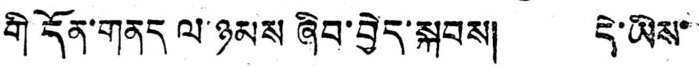གི དོན་གནད ལ་ཉམས ཞིབ་བྱེད་སྐབས། དེ་ཡིས་
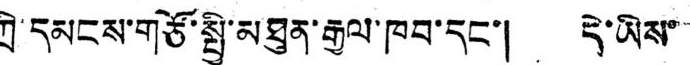ཀྲི་དམངས་གཙོ་སྤྱི་མཐུན་རྒྱལ་ཁབ་དང་། དེ་ཡིས་
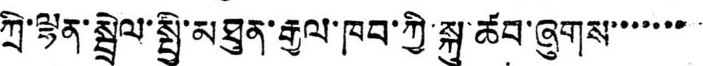ཀྲི་ལྷན་སྦྲེལ་སྤྱི་མཐུན་རྒྱལ་ཁབ་ཀྱི་སྐུ་ཚབ་ཞུགས་་་་་་་
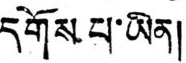དགོས པ་ཡིན།
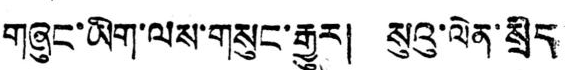གཞུང་ཡིག་ལས་གསུང་རྒྱུར། སུའུ་ལེན་སྲིད
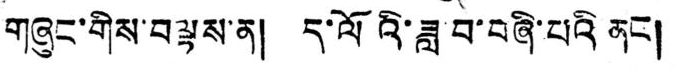གཞུང་གིས་བལྟས་ན། ད་ལོའི་ཟླ་བ་བཞི་པའི ནང།
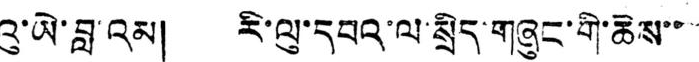འུ་ཡེ་བླ་འམ། རི་ལུ་དབའ་ལ་སྲིད་གཞུང་གི་ཆེས་་
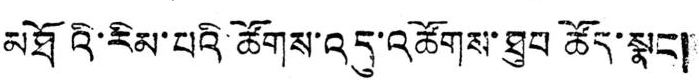མཐོའི་རིམ་པའི་ཚོགས་འདུ་འཚོགས་ཐུབ ཚོད་སྣང།
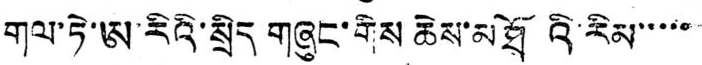གལ་ཏེ་ཨ་རིའི་སྲིད གཞུང་གིས ཆེས་མཐོའི་རིམ་་་་་
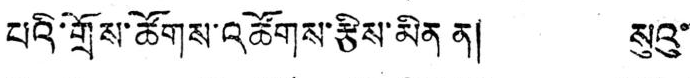པའི་གྲོས་ཚོགས་འཚོགས་རྩིས་མིན ན། སུའུ་
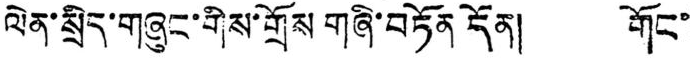ལེན་སྲིད་གཞུང་གིས་གྲོས གཞི་བཏོན དོན། གོང་
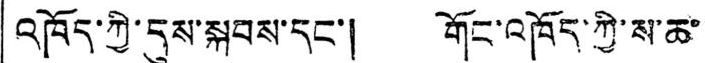འཁོད་ཀྱི་དུས་སྐབས་དང་། གོང་འཁོད་ཀྱི་ས་ཆ་
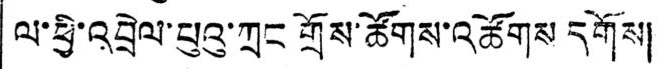ལ་ཕྱི་འབྲེལ་པུའུ་ཀྲང གྲོས་ཚོགས་འཚོགས དགོས།
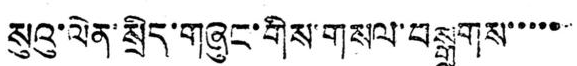སུའུ་ལེན་སྲིད་གཞུང་གིས་གསལ་བསྒྲགས་་་་་
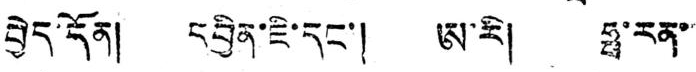བྱེད་དོན། དབྱིན་ཇི་དང་། ཨ་རི། ཧྥ་རན་
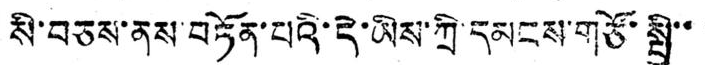སི་བཅས་ནས་བཏོན་པའི་དེ་ཡིས་ཀྲི་དམངས་གཙོ་སྤྱི་་
